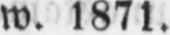w. 1871.
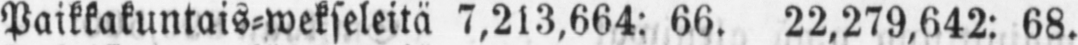Paikkakuntais-wekseleitä 7,213.664: 66. 22,279,642: 68.
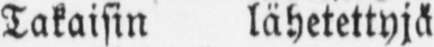Takaisin lähetettyjä
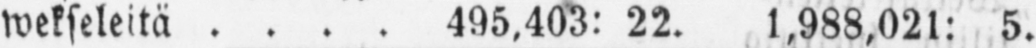wekseleitä 495,403: 22. 1,988,021: 5.
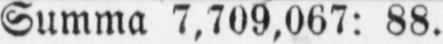Summa 7,709,067: 88.
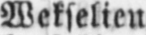Wekselien
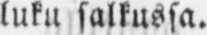luku salkussa.
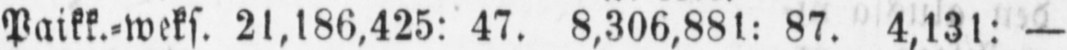Paikk.-weks. 21,180,425: 47. 8,306,881: 87. 4,131. —
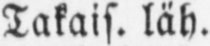Takais. läh.
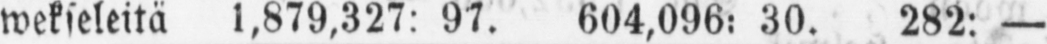wekseleitä 1,879,327: 97. 604,096: 30. 282: —
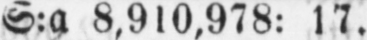S:a 8,910,978: 17.
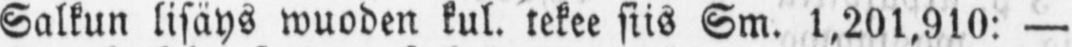Salkun lisäys wuoden kul. tekee siis Sm. 1,201,910: —
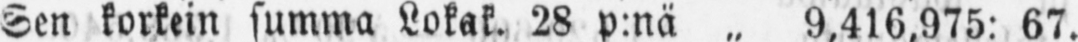Ken korkein summa Lokak. 28 p:nä „ 9,416,975: 67.
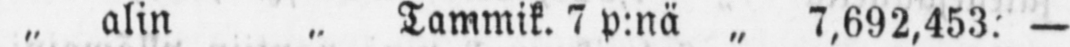„ alin „ Tammik. 7 p:nä „ 7,692,453: —
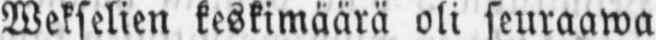Wekselien keskimäärä oli seuraawa
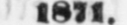1871.
